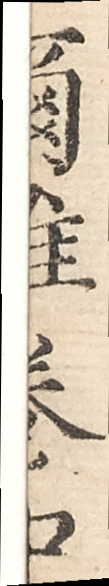爾雅卷中
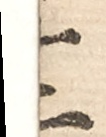三
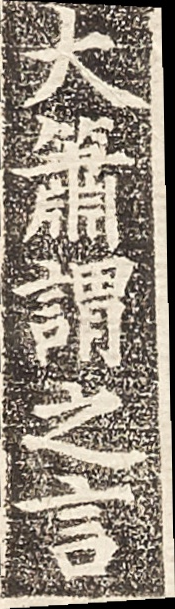大塤謂之器
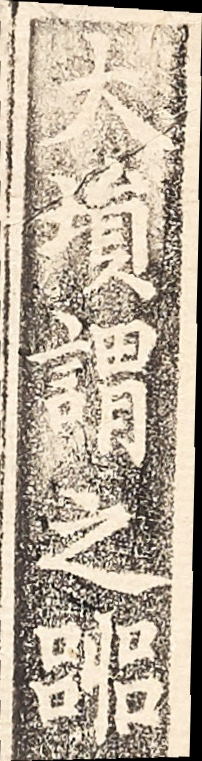大簫謂之言
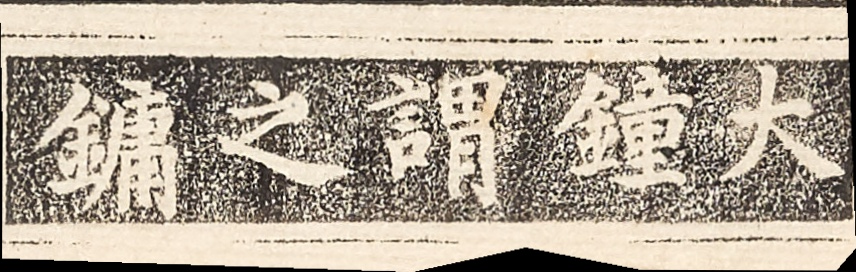小者謂之筊
